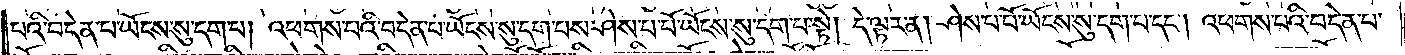པའི་བདེན་པ་ཡོངས་སུ་དག་པ། འཕགས་པའི་བདེན་པ་ཡོངས་སུ་དག་པས་ཤེས་པ་པོ་ཡོངས་སུ་དག་པ་སྟེ། དེ་ལྟར་ན། ཤེས་པ་པོ་ཡོངས་སུ་དག་པ་དང༌། འཕགས་པའི་བདེན་པ་
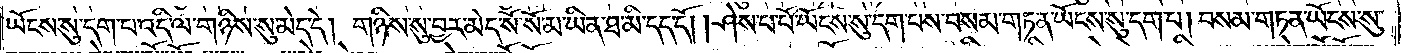ཡོངས་སུ་དག་པ་འདི་ལ་གཉིས་སུ་མེད་དེ། གཉིས་སུ་བྱར་མེད་སོ་སོ་མ་ཡིན་ཐ་མི་དད་དོ། །ཤེས་པ་པོ་ཡོངས་སུ་དག་པས་བསམ་གཏན་ཡོངས་སུ་དག་པ། བསམ་གཏན་ཡོངས་སུ་
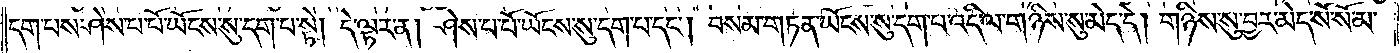དག་པས་ཤེས་པ་པོ་ཡོངས་སུ་དག་པ་སྟེ། དེ་ལྟར་ན། ཤེས་པ་པོ་ཡོངས་སུ་དག་པ་དང༌། བསམ་གཏན་ཡོངས་སུ་དག་པ་འདི་ལ་གཉིས་སུ་མེད་དེ། གཉིས་སུ་བྱར་མེད་སོ་སོ་མ་
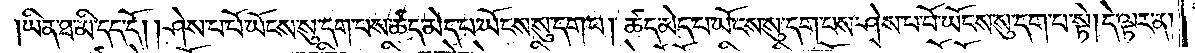ཡིན་ཐ་མི་དད་དོ། །ཤེས་པ་པོ་ཡོངས་སུ་དག་པས་ཚད་མེད་པ་ཡོངས་སུ་དག་པ། ཚད་མེད་པ་ཡོངས་སུ་དག་པས་ཤེས་པ་པོ་ཡོངས་སུ་དག་པ་སྟེ། དེ་ལྟར་ན།
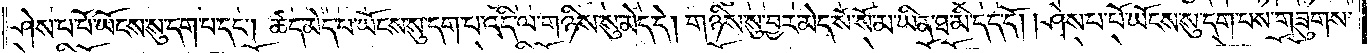ཤེས་པ་པོ་ཡོངས་སུ་དག་པ་དང༌། ཚད་མེད་པ་ཡོངས་སུ་དག་པ་འདི་ལ་གཉིས་སུ་མེད་དེ། གཉིས་སུ་བྱར་མེད་སོ་སོ་མ་ཡིན་ཐ་མི་དད་དོ། །ཤེས་པ་པོ་ཡོངས་སུ་དག་པས་གཟུགས་
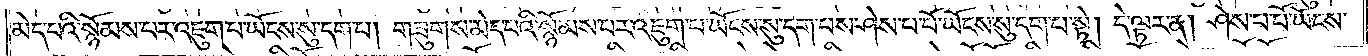མེད་པའི་སྙོམས་པར་འཇུག་པ་ཡོངས་སུ་དག་པ། གཟུགས་མེད་པའི་སྙོམས་པར་འཇུག་པ་ཡོངས་སུ་དག་པས་ཤེས་པ་པོ་ཡོངས་སུ་དག་པ་སྟེ། དེ་ལྟར་ན། ཤེས་པ་པོ་ཡོངས་
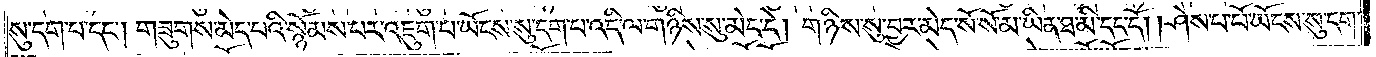སུ་དག་པ་དང༌། གཟུགས་མེད་པའི་སྙོམས་པར་འཇུག་པ་ཡོངས་སུ་དག་པ་འདི་ལ་གཉིས་སུ་མེད་དེ། གཉིས་སུ་བྱར་མེད་སོ་སོ་མ་ཡིན་ཐ་མི་དད་དོ། །ཤེས་པ་པོ་ཡོངས་སུ་དག་
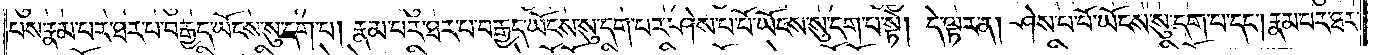པས་རྣམ་པར་ཐར་པ་བརྒྱད་ཡོངས་སུ་དག་པ། རྣམ་པར་ཐར་པ་བརྒྱད་ཡོངས་སུ་དག་པར་ཤེས་པ་པོ་ཡོངས་སུ་དག་པ་སྟེ། དེ་ལྟར་ན། ཤེས་པ་པོ་ཡོངས་སུ་དག་པ་དང༌། རྣམ་པར་ཐར་
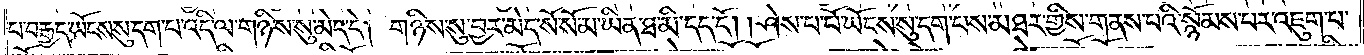པ་བརྒྱད་ཡོངས་སུ་དག་པ་འདི་ལ་གཉིས་སུ་མེད་དེ། གཉིས་སུ་བྱར་མེད་སོ་སོ་མ་ཡིན་ཐ་མི་དད་དོ། །ཤེས་པ་པོ་ཡོངས་སུ་དག་པས་མཐར་གྱིས་གནས་པའི་སྙོམས་པར་འཇུག་པ་
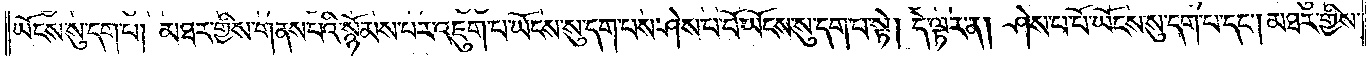ཡོངས་སུ་དག་པ། མཐར་གྱིས་གནས་པའི་སྙོམས་པར་འཇུག་པ་ཡོངས་སུ་དག་པས་ཤེས་པ་པོ་ཡོངས་སུ་དག་པ་སྟེ། དེ་ལྟར་ན། ཤེས་པ་པོ་ཡོངས་སུ་དག་པ་དང༌། མཐར་གྱིས་
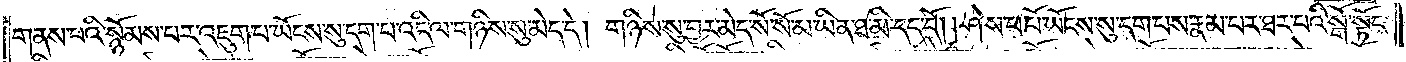གནས་པའི་སྙོམས་པར་འཇུག་པ་ཡོངས་སུ་དག་པ་འདི་ལ་གཉིས་སུ་མེད་དེ། གཉིས་སུ་བྱར་མེད་སོ་སོ་མ་ཡིན་ཐ་མི་དད་དོ། །ཤེས་པ་པོ་ཡོངས་སུ་དག་པས་རྣམ་པར་ཐར་པའི་སྒོ་སྟོང་
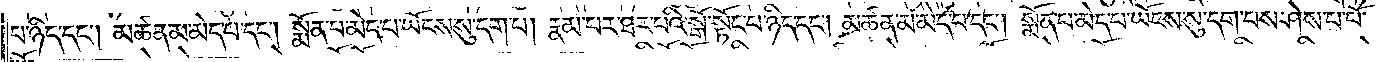པ་ཉིད་དང༌། མཚན་མ་མེད་པ་དང༌། སྨོན་པ་མེད་པ་ཡོངས་སུ་དག་པ། རྣམ་པར་ཐར་པའི་སྒོ་སྟོང་པ་ཉིད་དང༌། མཚན་མ་མེད་པ་དང༌། སྨོན་པ་མེད་པ་ཡོངས་སུ་དག་པས་ཤེས་པ་པོ་
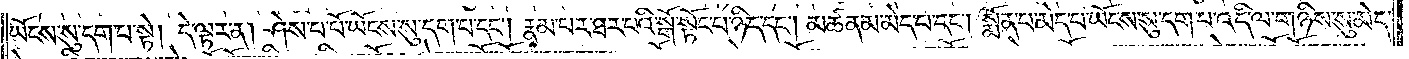ཡོངས་སུ་དག་པ་སྟེ། དེ་ལྟར་ན། ཤེས་པ་པོ་ཡོངས་སུ་དག་པ་དང༌། རྣམ་པར་ཐར་པའི་སྒོ་སྟོང་པ་ཉིད་དང༌། མཚན་མ་མེད་པ་དང༌། སྨོན་པ་མེད་པ་ཡོངས་སུ་དག་པ་འདི་ལ་གཉིས་སུ་མེད་
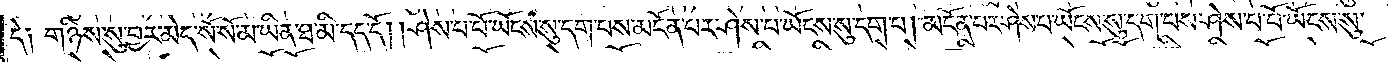དེ༑ གཉིས་སུ་བྱར་མེད་སོ་སོ་མ་ཡིན་ཐ་མི་དད་དོ། །ཤེས་པ་པོ་ཡོངས་སུ་དག་པས་མངོན་པར་ཤེས་པ་ཡོངས་སུ་དག་པ། མངོན་པར་ཤེས་པ་ཡོངས་སུ་དག་པས་ཤེས་པ་པོ་ཡོངས་སུ་
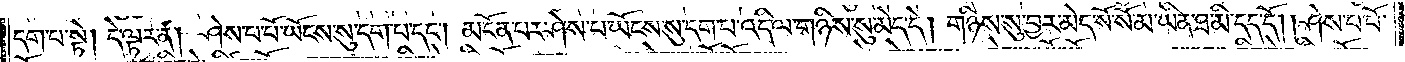དག་པ་སྟེ། དེ་ལྟར་ན། ཤེས་པ་པོ་ཡོངས་སུ་དག་པ་དང༌། མངོན་པར་ཤེས་པ་ཡོངས་སུ་དག་པ་འདི་ལ་གཉིས་སུ་མེད་དེ། གཉིས་སུ་བྱར་མེད་སོ་སོ་མ་ཡིན་ཐ་མི་དད་དོ། །ཤེས་པ་པོ་
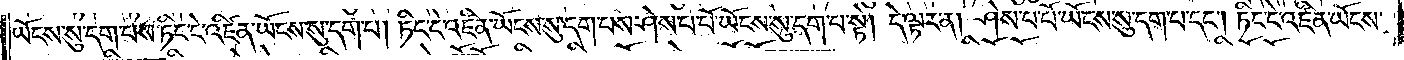ཡོངས་སུ་དག་པས་ཏིང་ངེ་འཛིན་ཡོངས་སུ་དག་པ། ཏིང་ངེ་འཛིན་ཡོངས་སུ་དག་པས་ཤེས་པ་པོ་ཡོངས་སུ་དག་པ་སྟེ། དེ་ལྟར་ན། ཤེས་པ་པོ་ཡོངས་སུ་དག་པ་དང༌། ཏིང་ངེ་འཛིན་ཡོངས་
